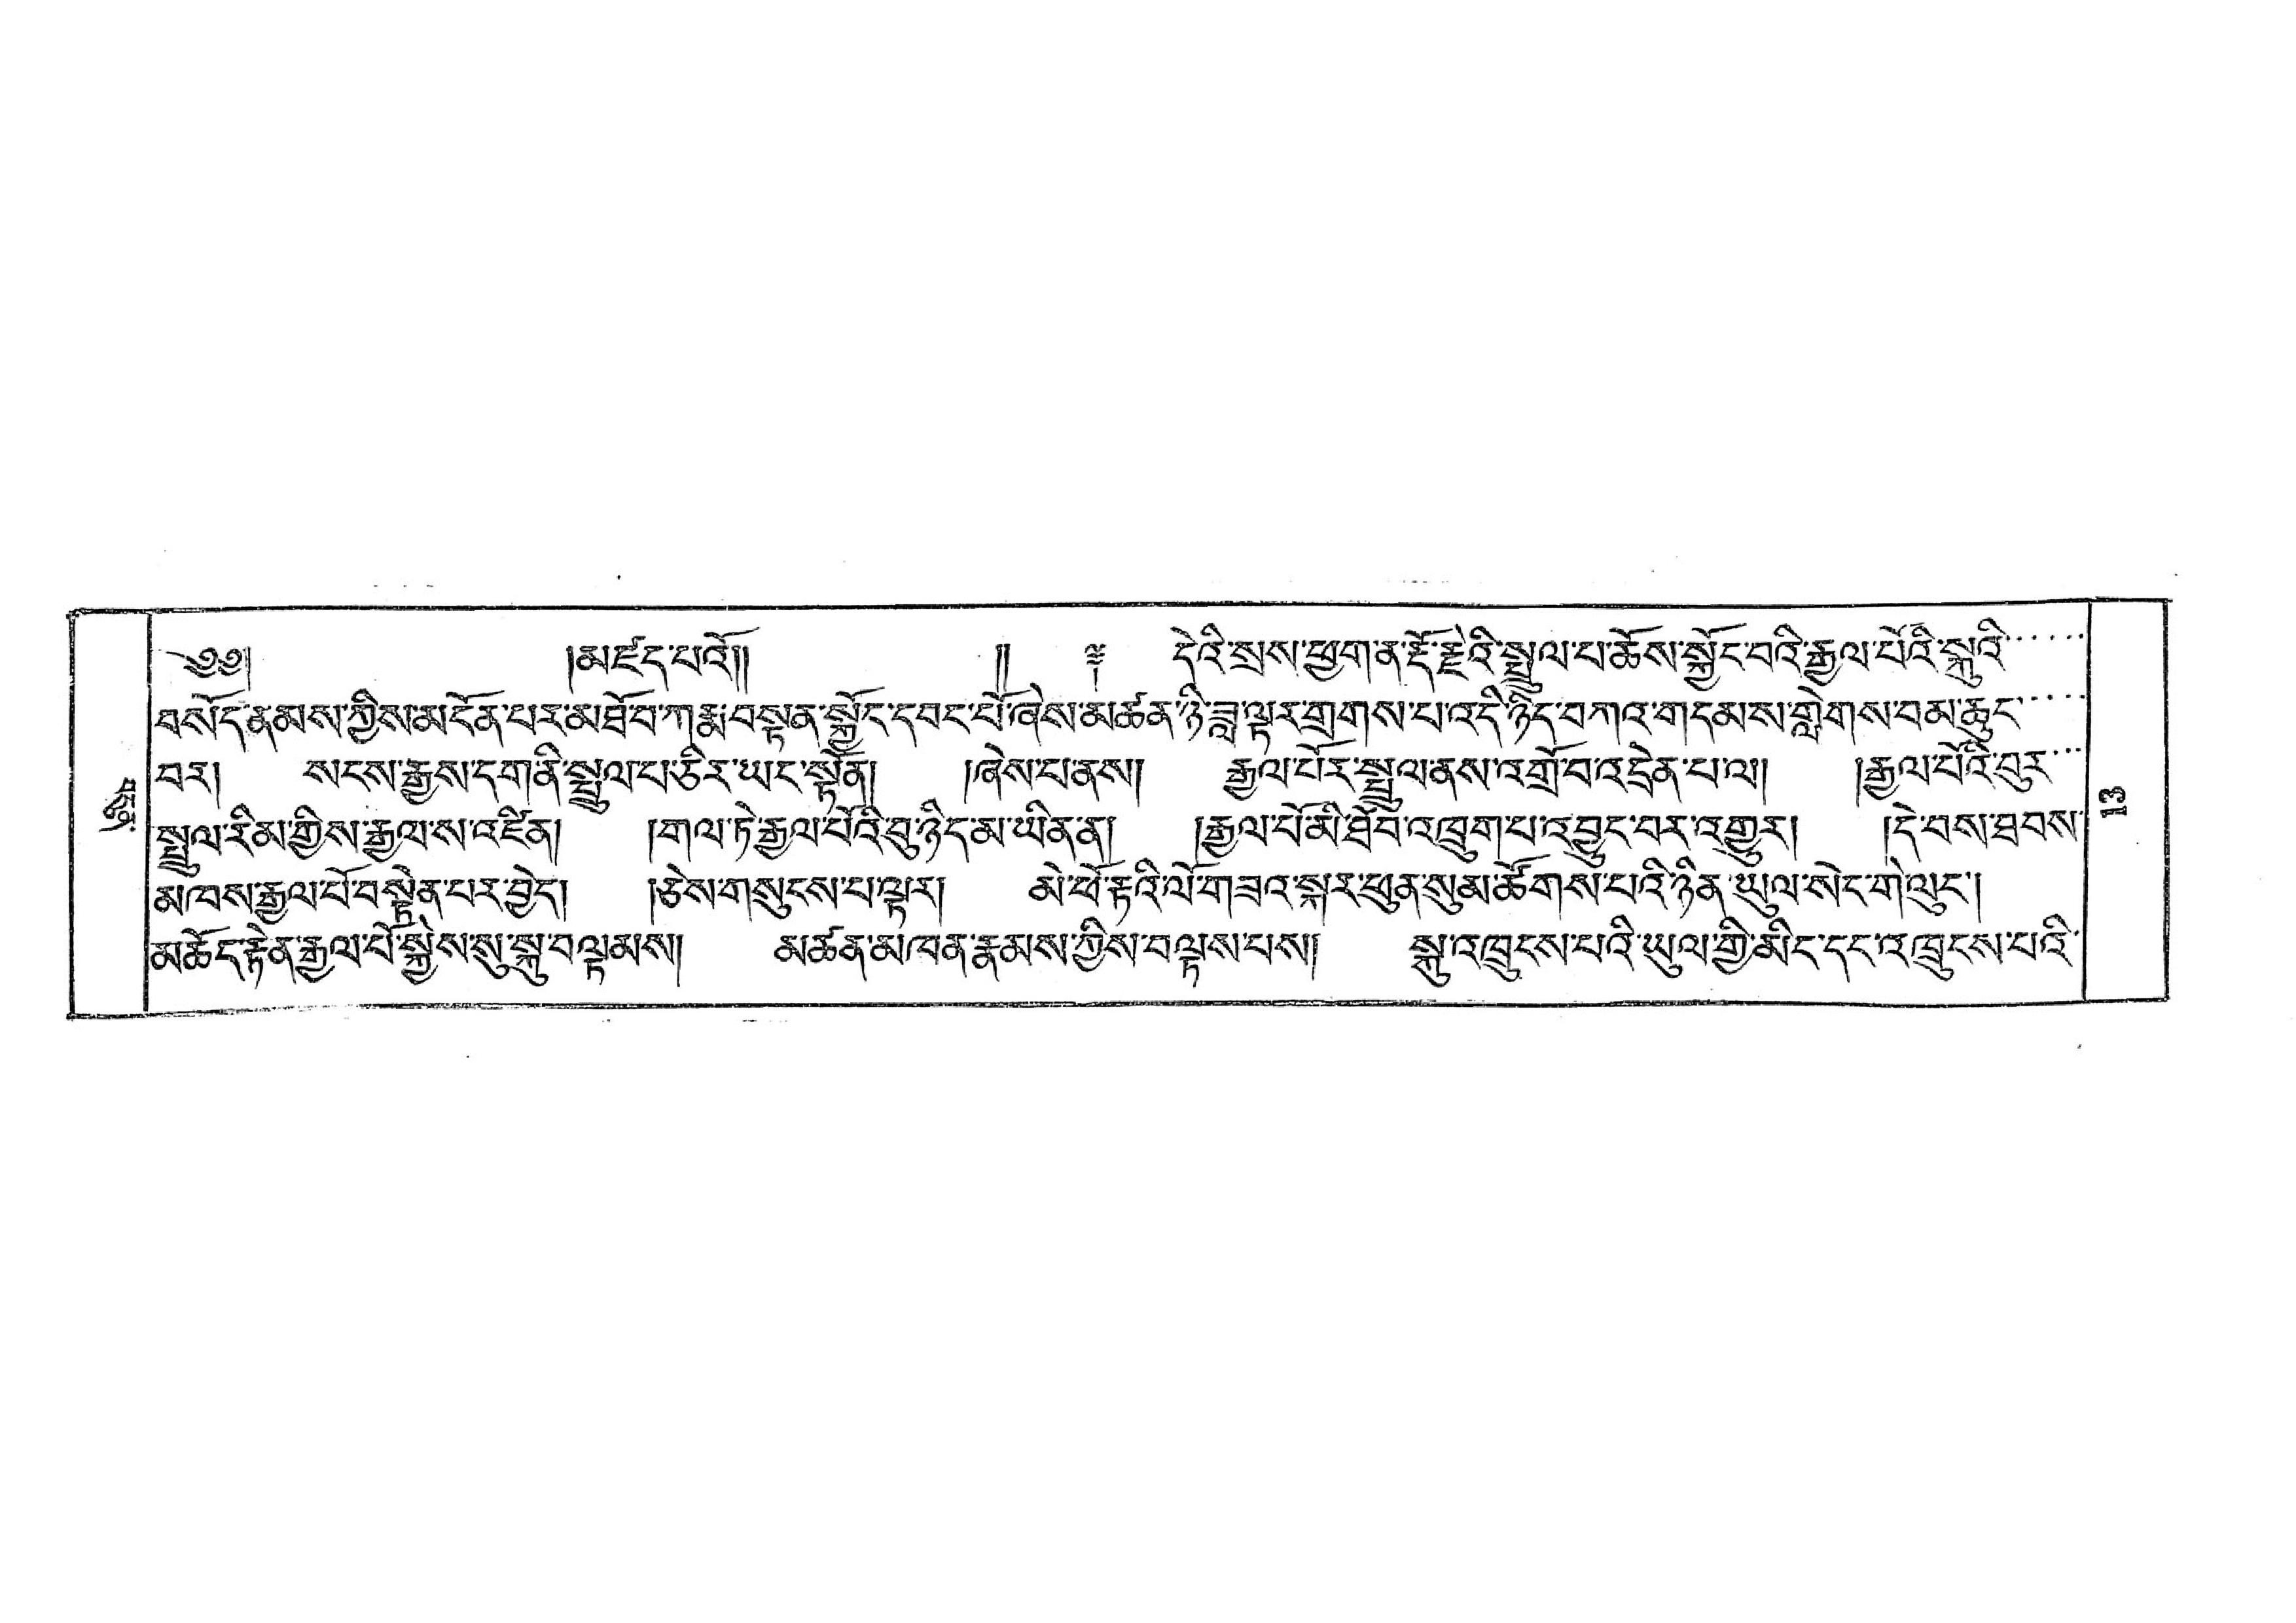བདུན་
༄༅།  །མཛད་པའོ།།  །། ༈ དེའི་སྲས་ཕྱག་ན་རྡོ་རྗིའི་སྤྲུལ་པ་ཆོས་སྐྱོང་བའི་རྒྱལ་པོའི་སྐུའི་་་་་་
བསོད་ནམས་ཀྱིས་མངོན་པར་མཐོ་བ་ཀརྨ་བསྟན་སྐྱོང་དབང་པོ་ཞེས་མཚན་ཉི་ཟླ་ལྟར་གྲགས་པ་འདི་ཉིད་བཀའ་གདམས་གླེགས་བམ་ཆུང་་་་་
བར། སངས་རྒྱས་དག་ནི་སྤྲུལ་པ་ཅིར་ཡང་སྟོན། །ཞེས་པ་ནས། རྒྱལ་པོར་སྤྲུལ་ནས་འགྲོ་བ་འདྲེན་པ་ལ། །རྒྱལ་པོའི་བུར་་་
སྤྲུལ་རིམ་གྱིས་རྒྱལ་ས་འཛིན། །གལ་ཏེ་རྒྱལ་པོའི་བུ་ཉིད་མ་ཡིན་ན། །རྒྱལ་པོ་མི་ཐོབ་འཁྲུག་པ་འབྱུང་བར་འགྱུར། དེ་བས་ཐབས་
མཁས་རྒྱལ་པོ་བསྟེན་པར་བྱེད། །ཅེས་གསུངས་པ་ལྟར། མེ་ཕོ་རྟའི་ལོ་གཟའ་སྐར་ཕུན་སུམ་ཚོགས་པའི་ཉིན་ཡུལ་སེར་གེ་ལུང་།
མཆོད་རྟེན་རྒྱལ་པོ་སྐྱེས་སུ་སྐུ་བལྟམས། མཚན་མཁན་རྣམས་ཀྱིས་བལྟས་པས། སྐུ་འཁྲུངས་པའི་ཡུལ་གྱི་མིང་དང་འཁྲུངས་པའི་
